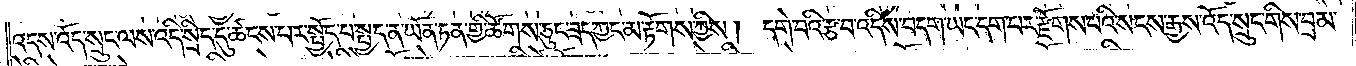འདས་འོད་སྲུང་ལས་འདི་སྲིད་དུ་ཚངས་པར་སྤྱོད་པ་སྤྱད་ན་ཡོན་ཏན་གྱི་ཚོགས་ཅུང་ཟད་ཀྱང་མ་རྟོགས་ཀྱིས། དགེ་བའི་རྩ་བ་འདིས་བདག་ཡང་དག་པར་རྫོགས་པའི་སངས་རྒྱས་འོད་སྲུང་གིས་བྲམ་
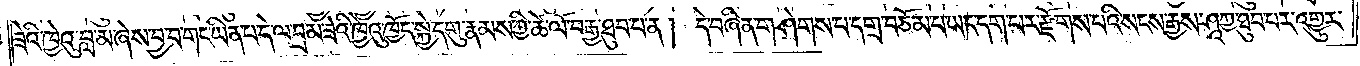ཟེའི་ཁྱེའུ་བླ་མ་ཞེས་བྱ་བ་གང་ཡིན་པ་དེ་ལ་བྲམ་ཟེའི་ཁྱེའུ་ཁྱོད་སྐྱེ་དགུ་རྣམས་ཀྱི་ཚེ་ལོ་བརྒྱ་ཐུབ་པ་ན། དེ་བཞིན་གཤེགས་པ་དགྲ་བཅོམ་པ་ཡང་དག་པར་རྫོགས་པའི་སངས་རྒྱས་ཤཱཀྱ་ཐུབ་པར་འགྱུར་
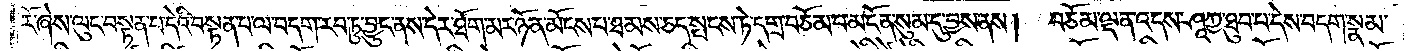རོ་ཞེས་ལུང་བསྟན་པ་དེའི་བསྟན་པ་ལ་བདག་རབ་ཏུ་བྱུང་ནས་དེར་ཐོག་མར་ཉོན་མོངས་པ་ཐམས་ཅད་སྤངས་ཏེ་དགྲ་བཅོམ་པ་མངོན་སུམ་དུ་བྱས་ནས། བཅོམ་ལྡན་འདས་ཤཱཀྱ་ཐུབ་པ་དེས་བདག་སྣམ་
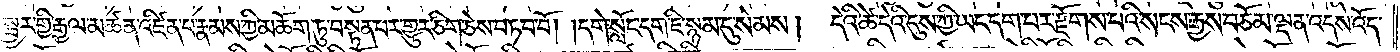སྦྱར་གྱི་རྒྱལ་མཚན་འཛིན་པ་རྣམས་ཀྱི་མཆོག་ཏུ་བསྟན་པར་གྱུར་ཅིག་ཅེས་བཏབ་བོ། །དགེ་སློང་དག་ཇི་སྙམ་དུ་སེམས། དེའི་ཚེ་དེའི་དུས་ཀྱི་ཡང་དག་པར་རྫོགས་པའི་སངས་རྒྱས་བཅོམ་ལྡན་འདས་འོད་
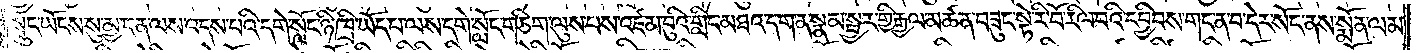སྲུང་ཡོངས་སུ་མྱ་ངན་ལས་འདས་པའི་དགེ་སློང་ཉི་ཁྲི་ཡོད་པ་ལས་དགེ་སློང་གཅིག་ལུས་པས་འཛམ་བུའི་གླིང་མཐའ་དག་ན་སྣམ་སྦྱར་གྱི་རྒྱལ་མཚན་བཟུང་སྟེ་རི་བོ་རིལ་བའི་དབྱིབས་གང་ན་བ་དེར་སོང་ནས་སྨོན་ལམ་
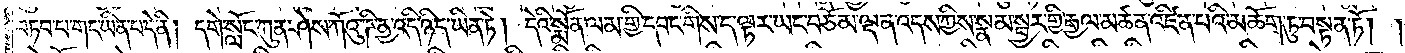བཏབ་པ་གང་ཡིན་པ་དེ་ནི། དགེ་སློང་ཀུན་ཤེས་ཀོའུ་ཌི་ནྱ་འདི་ཉིད་ཡིན་ཏེ། དེའི་སྨོན་ལམ་གྱི་དབང་གིས་ད་ལྟར་ཡང་བཅོམ་ལྡན་འདས་ཀྱིས་སྣམ་སྦྱར་གྱི་རྒྱལ་མཚན་འཛིན་པའི་མཆོག་ཏུ་བསྟན་ཏོ། །
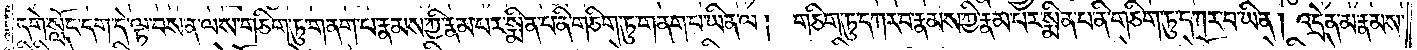དགེ་སློང་དག་དེ་ལྟ་བས་ན་ལས་གཅིག་ཏུ་གནག་པ་རྣམས་ཀྱི་རྣམ་པར་སྨིན་པ་ནི་གཅིག་ཏུ་གནག་པ་ཡིན་ལ། གཅིག་ཏུ་དཀར་བ་རྣམས་ཀྱི་རྣམ་པར་སྨིན་པ་ནི་གཅིག་ཏུ་དཀར་པ་ཡིན། འདྲེན་མ་རྣམས་
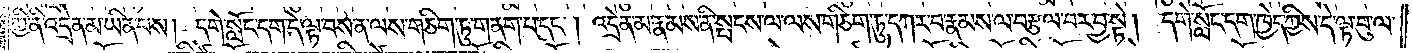ཀྱི་ནི་འདྲེན་མ་ཡིན་པས། དགེ་སློང་དག་དེ་ལྟ་བས་ན་ལས་གཅིག་ཏུ་གནག་པ་དང༌། འདྲེན་མ་རྣམས་ནི་སྤངས་ལ་ལས་གཅིག་ཏུ་དཀར་པ་རྣམས་ལ་བརྩལ་བར་བྱ་སྟེ། དགེ་སློང་དག་ཁྱེད་ཀྱིས་དེ་ལྟ་བུ་ལ་
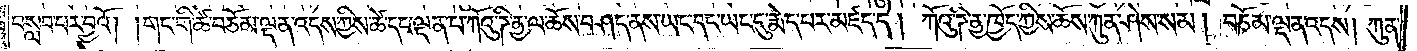བསླབ་པར་བྱའོ། །གང་གི་ཚེ་བཅོམ་ལྡན་འདས་ཀྱིས་ཚེ་དང་ལྡན་པ་ཀོའུ་ཌི་ནྱ་ལ་ཆོས་བཤད་ནས་ཡང་དག་ཡང་དུ་རྨེད་པར་མཛད་དེ།  ཀོའུ་ཌི་ནྱ་ཁྱོད་ཀྱིས་ཆོས་ཀུན་ཤེས་སམ། བཅོམ་ལྡན་འདས། ཀུན་
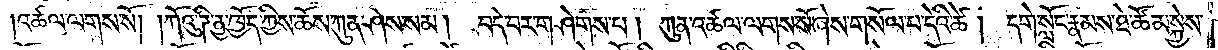འཚལ་ལགས་སོ། །ཀོའུ་ཌི་ནྱ་ཁྱོད་ཀྱིས་ཆོས་ཀུན་ཤེས་སམ། བདེ་བར་གཤེགས་པ། ཀུན་འཚལ་ལགས་སོ་ཞེས་གསོལ་པ་དེའི་ཚེ། དགེ་སློང་རྣམས་ཐེ་ཚོམ་སྐྱེས་
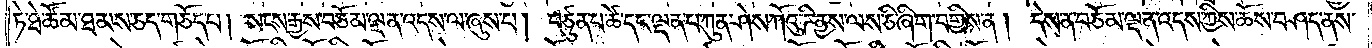ཏེ་ཐེ་ཚོམ་ཐམས་ཅད་གཅོད་པ། སངས་རྒྱས་བཅོམ་ལྡན་འདས་ལ་ཞུས་པ། བཙུན་པ་ཚེ་དང་ལྡན་པ་ཀུན་ཤེས་ཀོའུ་ཌི་ནྱས་ལས་ཅི་ཞིག་བགྱིས་ན། དེས་ན་བཅོམ་ལྡན་འདས་ཀྱིས་ཆོས་བཤད་ནས་
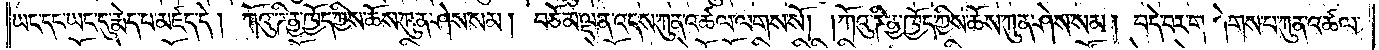ཡང་དང་ཡང་དུ་རྨེད་པ་མཛད་དེ། ཀོའུ་ཌི་ནྱ་ཁྱོད་ཀྱིས་ཆོས་ཀུན་ཤེས་སམ། བཅོམ་ལྡན་འདས་ཀུན་འཚལ་ལགས་སོ། །ཀོའུ་ཌི་ནྱ་ཁྱོད་ཀྱིས་ཆོས་ཀུན་ཤེས་སམ། བདེ་བར་གཤེགས་པ་ཀུན་འཚལ་
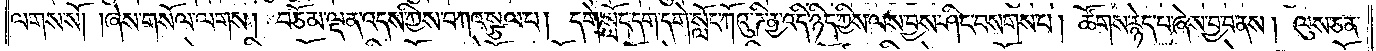ལགས་སོ། །ཞེས་གསོལ་ལགས། བཅོམ་ལྡན་འདས་ཀྱིས་བཀའ་སྩལ་པ། དགེ་སློང་དག་དགེ་སློང་ཀོའུ་ཌི་ནྱ་འདི་ཉིད་ཀྱིས་ལས་བྱས་ཤིང་བསགས་པ། ཚོགས་རྙེད་པ་ཞེས་བྱ་བ་ནས། ལུས་ཅན་
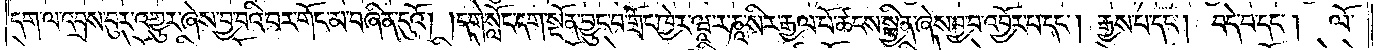དག་ལ་འབྲས་བུར་འགྱུར་ཞེས་བྱ་བའི་བར་གོང་མ་བཞིན་དུའོ། །དགེ་སློང་དག་སྔོན་བྱུང་བ་གྲོང་ཁྱེར་ཝཱ་ར་ནཱ་སིར་རྒྱལ་པོ་ཚངས་སྦྱིན་ཞེས་བྱ་བ་འབྱོར་པ་དང༌། རྒྱས་པ་དང༌། བདེ་བ་དང༌། ལོ་
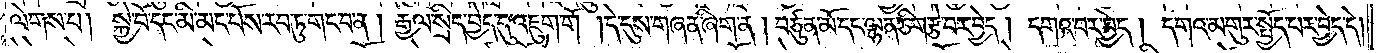ལེགས་པ། སྐྱེ་བོ་དང་མི་མང་པོས་རབ་ཏུ་གང་བ་ན། རྒྱལ་སྲིད་བྱེད་དུ་འཇུག་གོ །དེ་དུས་གཞན་ཞིག་ན། བཙུན་མོ་དང་ལྷན་ཅིག་རྩེ་བར་བྱེད། དགའ་བར་བྱེད། དགའ་མགུར་སྤྱོད་པར་བྱེད་དེ།
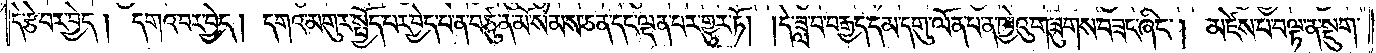དེ་རྩེ་བར་བྱེད། དགའ་བར་བྱེད། དགའ་མགུར་སྤྱོད་པར་བྱེད་པ་ན་བཙུན་མོ་སེམས་ཅན་དང་ལྡན་པར་གྱུར་ཏོ། །དེ་ཟླ་བ་བརྒྱད་དམ་དགུ་ལོན་པ་ན་ཁྱེའུ་གཟུགས་བཟང་ཞིང༌། མཛེས་པ་བལྟ་ན་སྡུག་
